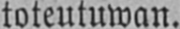toteutuwan.
